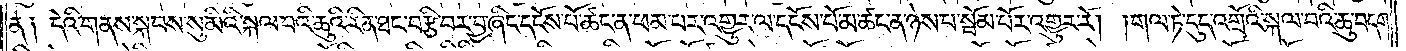ན༑ དེའི་གནས་སྐབས་སུ་མིའི་སྐལ་བའི་ཆུའི་རིན་ཐང་བརྩི་བར་བྱ་ཞིང་དངོས་པོ་ཚང་ན་ཕམ་པར་འགྱུར་ལ་དངོས་པོ་མ་ཚང་ན་ཉེས་པ་སྦོམ་པོར་འགྱུར་རོ། །གལ་ཏེ་དུད་འགྲོའི་སྐལ་བའི་ཆུ་བདག་
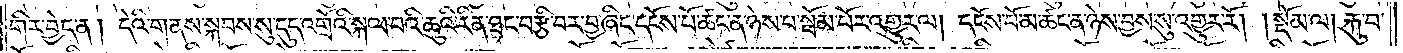གིར་བྱེད་ན། དེའི་གནས་སྐབས་སུ་དུད་འགྲོའི་སྐལ་བའི་ཆུའི་རིན་ཐང་བརྩི་བར་བྱ་ཞིང་དངོས་པོ་ཚང་ན་ཉེས་པ་སྦོམ་པོར་འགྱུར་ལ། དངོས་པོ་མ་ཚང་ན་ཉེས་བྱས་སུ་འགྱུར་རོ། །སྡོམ་ལ། རྐུ་བ་
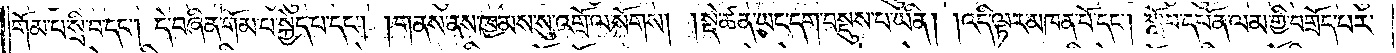གོམ་པ་སྲི་བ་དང༌། དེ་བཞིན་གོམ་པ་སྐྱེད་པ་དང༌། གནས་ནས་ཁྱམས་སུ་འགྲོ་ལ་སོགས། སྡེ་ཚན་ཡང་དག་བསྡུས་པ་ཡིན། འདི་ལྟར་མཁན་པོ་དང༌། སློབ་དཔོན་ལམ་གྱི་བགྲོད་པར་
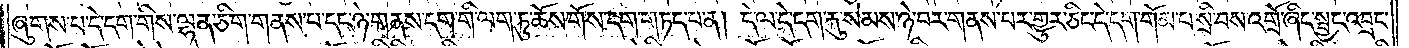ཞུགས་པ་དེ་དག་གིས་ལྷན་ཅིག་གནས་པ་དང་ཉེ་གནས་དག་གི་ལག་ཏུ་ཆོས་གོས་དག་གཏད་པ་ན། དེ་ལ་དེ་དག་རྐུ་སེམས་ཉེ་བར་གནས་པར་གྱུར་ཅིང་དེ་དག་གོམ་པ་སྲི་བས་འགྲོ་ཞིང་སྦྱང་འབྲང་
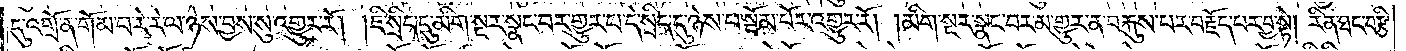དུ་འགྲོ་ན་གོམ་པ་རེ་རེ་ལ་ཉེས་བྱས་སུ་འགྱུར་རོ། །ཇི་སྲིད་དུ་མིག་སྔར་སྣང་བར་གྱུར་པ་དེ་སྲིད་དུ་ཉེས་པ་སྦོམ་པོར་འགྱུར་རོ། །མིག་སྔར་སྣང་བར་མ་གྱུར་ན་བརྐུས་པར་བརྗོད་པར་བྱ་སྟེ། རིན་ཐང་བརྩི་
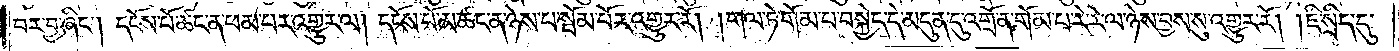བར་བྱ་ཞིང༌། དངོས་པོ་ཚང་ན་ཕམ་པར་འགྱུར་ལ། དངོས་པོ་མ་ཚང་ན་ཉེས་པ་སྦོམ་པོར་འགྱུར་རོ། །གལ་ཏེ་གོམ་པ་བསྐྱེད་དེ་མདུན་དུ་འགྲོ་ན་གོམ་པ་རེ་རེ་ལ་ཉེས་བྱས་སུ་འགྱུར་རོ། །ཇི་སྲིད་དུ་
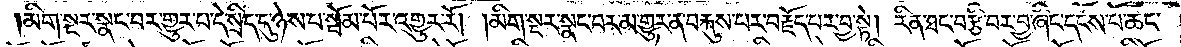མིག་སྔར་སྣང་བར་གྱུར་པ་དེ་སྲིད་དུ་ཉེས་པ་སྦོམ་པོར་འགྱུར་རོ། །མིག་སྔར་སྣང་བར་མ་གྱུར་ན་བརྐུས་པར་བརྗོད་པར་བྱ་སྟེ། རིན་ཐང་བརྩི་བར་བྱ་ཞིང་དངོས་པོ་ཚང་
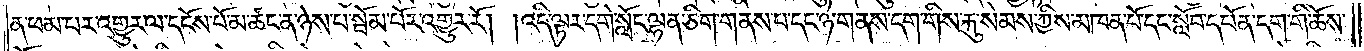ན་ཕམ་པར་འགྱུར་ལ་དངོས་པོ་མ་ཚང་ན་ཉེས་པ་སྦོམ་པོར་འགྱུར་རོ། །འདི་ལྟར་དགེ་སློང་ལྷན་ཅིག་གནས་པ་དང་ཉེ་གནས་དག་གིས་རྐུ་སེམས་ཀྱིས་མཁན་པོ་དང་སློབ་དཔོན་དག་གི་ཆོས་
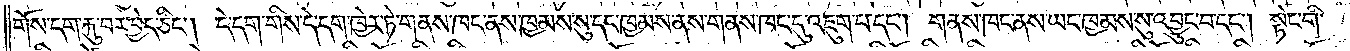གོས་དག་རྐུ་བར་བྱེད་ཅིང༌། དེ་དག་གིས་དེ་དག་ཁྱེར་ཏེ་གནས་ཁང་ནས་ཁྱམས་སུ་དང་ཁྱམས་ནས་གནས་ཁང་དུ་འཇུག་པ་དང༌། གནས་ཁང་ནས་ཡང་ཁྱམས་སུ་འབྱུང་བ་དང༌། སྟེང་གི་
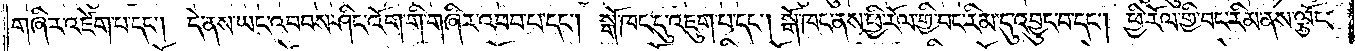གཞིར་འཛེག་པ་དང༌། དེ་ནས་ཡང་འབབས་ཤིང་འོག་གི་གཞིར་འབབ་པ་དང༌། སྒོ་ཁང་དུ་འཇུག་པ་དང༌། སྒོ་ཁང་ནས་ཕྱི་རོལ་གྱི་བང་རིམ་དུ་འབྱུང་བ་དང༌། ཕྱི་རོལ་གྱི་བང་རིམ་ནས་ལྕོང་
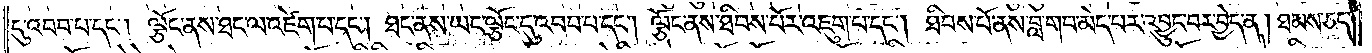དུ་འབབ་པ་དང༌། ལྕོང་ནས་ཐང་ལ་འཛེག་པ་དང༌། ཐང་ནས་ཡང་ལྕོང་དུ་འབབ་པ་དང༌། ལྕོང་ནས་ཐིབས་པོར་འཇུག་པ་དང༌། ཐིབས་པོ་ནས་བླ་གབ་མེད་པར་འབྱུང་བར་བྱེད་ན། ཐམས་ཅད་
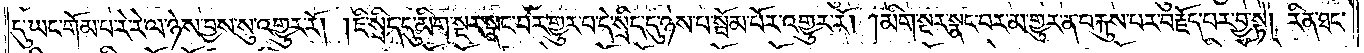དུ་ཡང་གོམ་པ་རེ་རེ་ལ་ཉེས་བྱས་སུ་འགྱུར་རོ། །ཇི་སྲིད་དུ་མིག་སྔར་སྣང་བར་གྱུར་པ་དེ་སྲིད་དུ་ཉེས་པ་སྦོམ་པོར་འགྱུར་རོ། །མིག་སྔར་སྣང་བར་མ་གྱུར་ན་བརྐུས་པར་བརྗོད་པར་བྱ་སྟེ། རིན་ཐང་
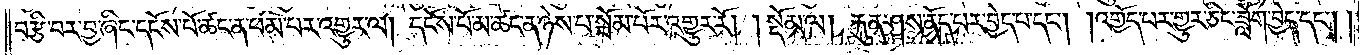བརྩི་བར་བྱ་ཞིང་དངོས་པོ་ཚང་ན་ཕམ་པར་འགྱུར་ལ། དངོས་པོ་མ་ཚང་ན་ཉེས་པ་སྦོམ་པོར་འགྱུར་རོ། །སྡོམ་ལ། རྐུན་ཤས་ནོད་པར་བྱེད་པ་དང༌། འགྱོད་པར་གྱུར་ཅིང་ཟློག་བྱེད་དང༌། །
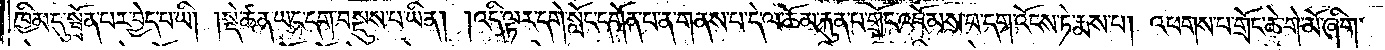ཁྱིམ་དུ་སྦྲོན་པར་བྱེད་པ་ཡི། །སྡེ་ཚན་ཡང་དག་བསྡུས་པ་ཡིན། །འདི་ལྟར་དགེ་སློང་དགོན་པ་ན་གནས་པ་དེ་ལ་ཆོམ་རྐུན་པ་གྲོང་འཇོམས་པ་དག་འོངས་ཏེ་རྨས་པ། འཕགས་པ་གྲོང་ཆེ་གེ་མོ་ཞིག་
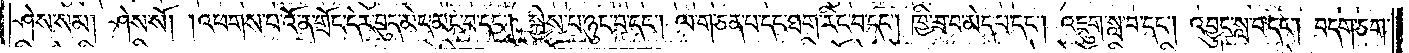ཤེས་སམ། ཤེས་སོ། །འཕགས་པ་འོ་ན་གྲོང་དེར་བུད་མེད་མང་བ་དང༌། སྐྱེས་པ་ཉུང་བ་དང༌། ལ་གཅན་པ་དང་ཐག་རིང་བ་དང༌། ཁྱི་ཟ་བ་མེད་པ་དང༌། འཇུག་སླ་བ་དང༌། འབྱུང་སླ་བ་དང༌། བདག་ཅག་
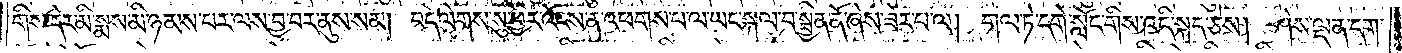གིས་དེར་མི་སྨས་མི་ཉམས་པར་ལས་བྱ་བར་ནུས་སམ། བདེ་ལེགས་སུ་ཕྱིར་འོངས་ན་འཕགས་པ་ལ་ཡང་སྐལ་བ་སྦྱིན་ནོ་ཞེས་ཟེར་བ་ལ། གལ་ཏེ་དགེ་སློང་གིས་འདི་སྐད་ཅེས། ཤེས་ལྡན་དག་
